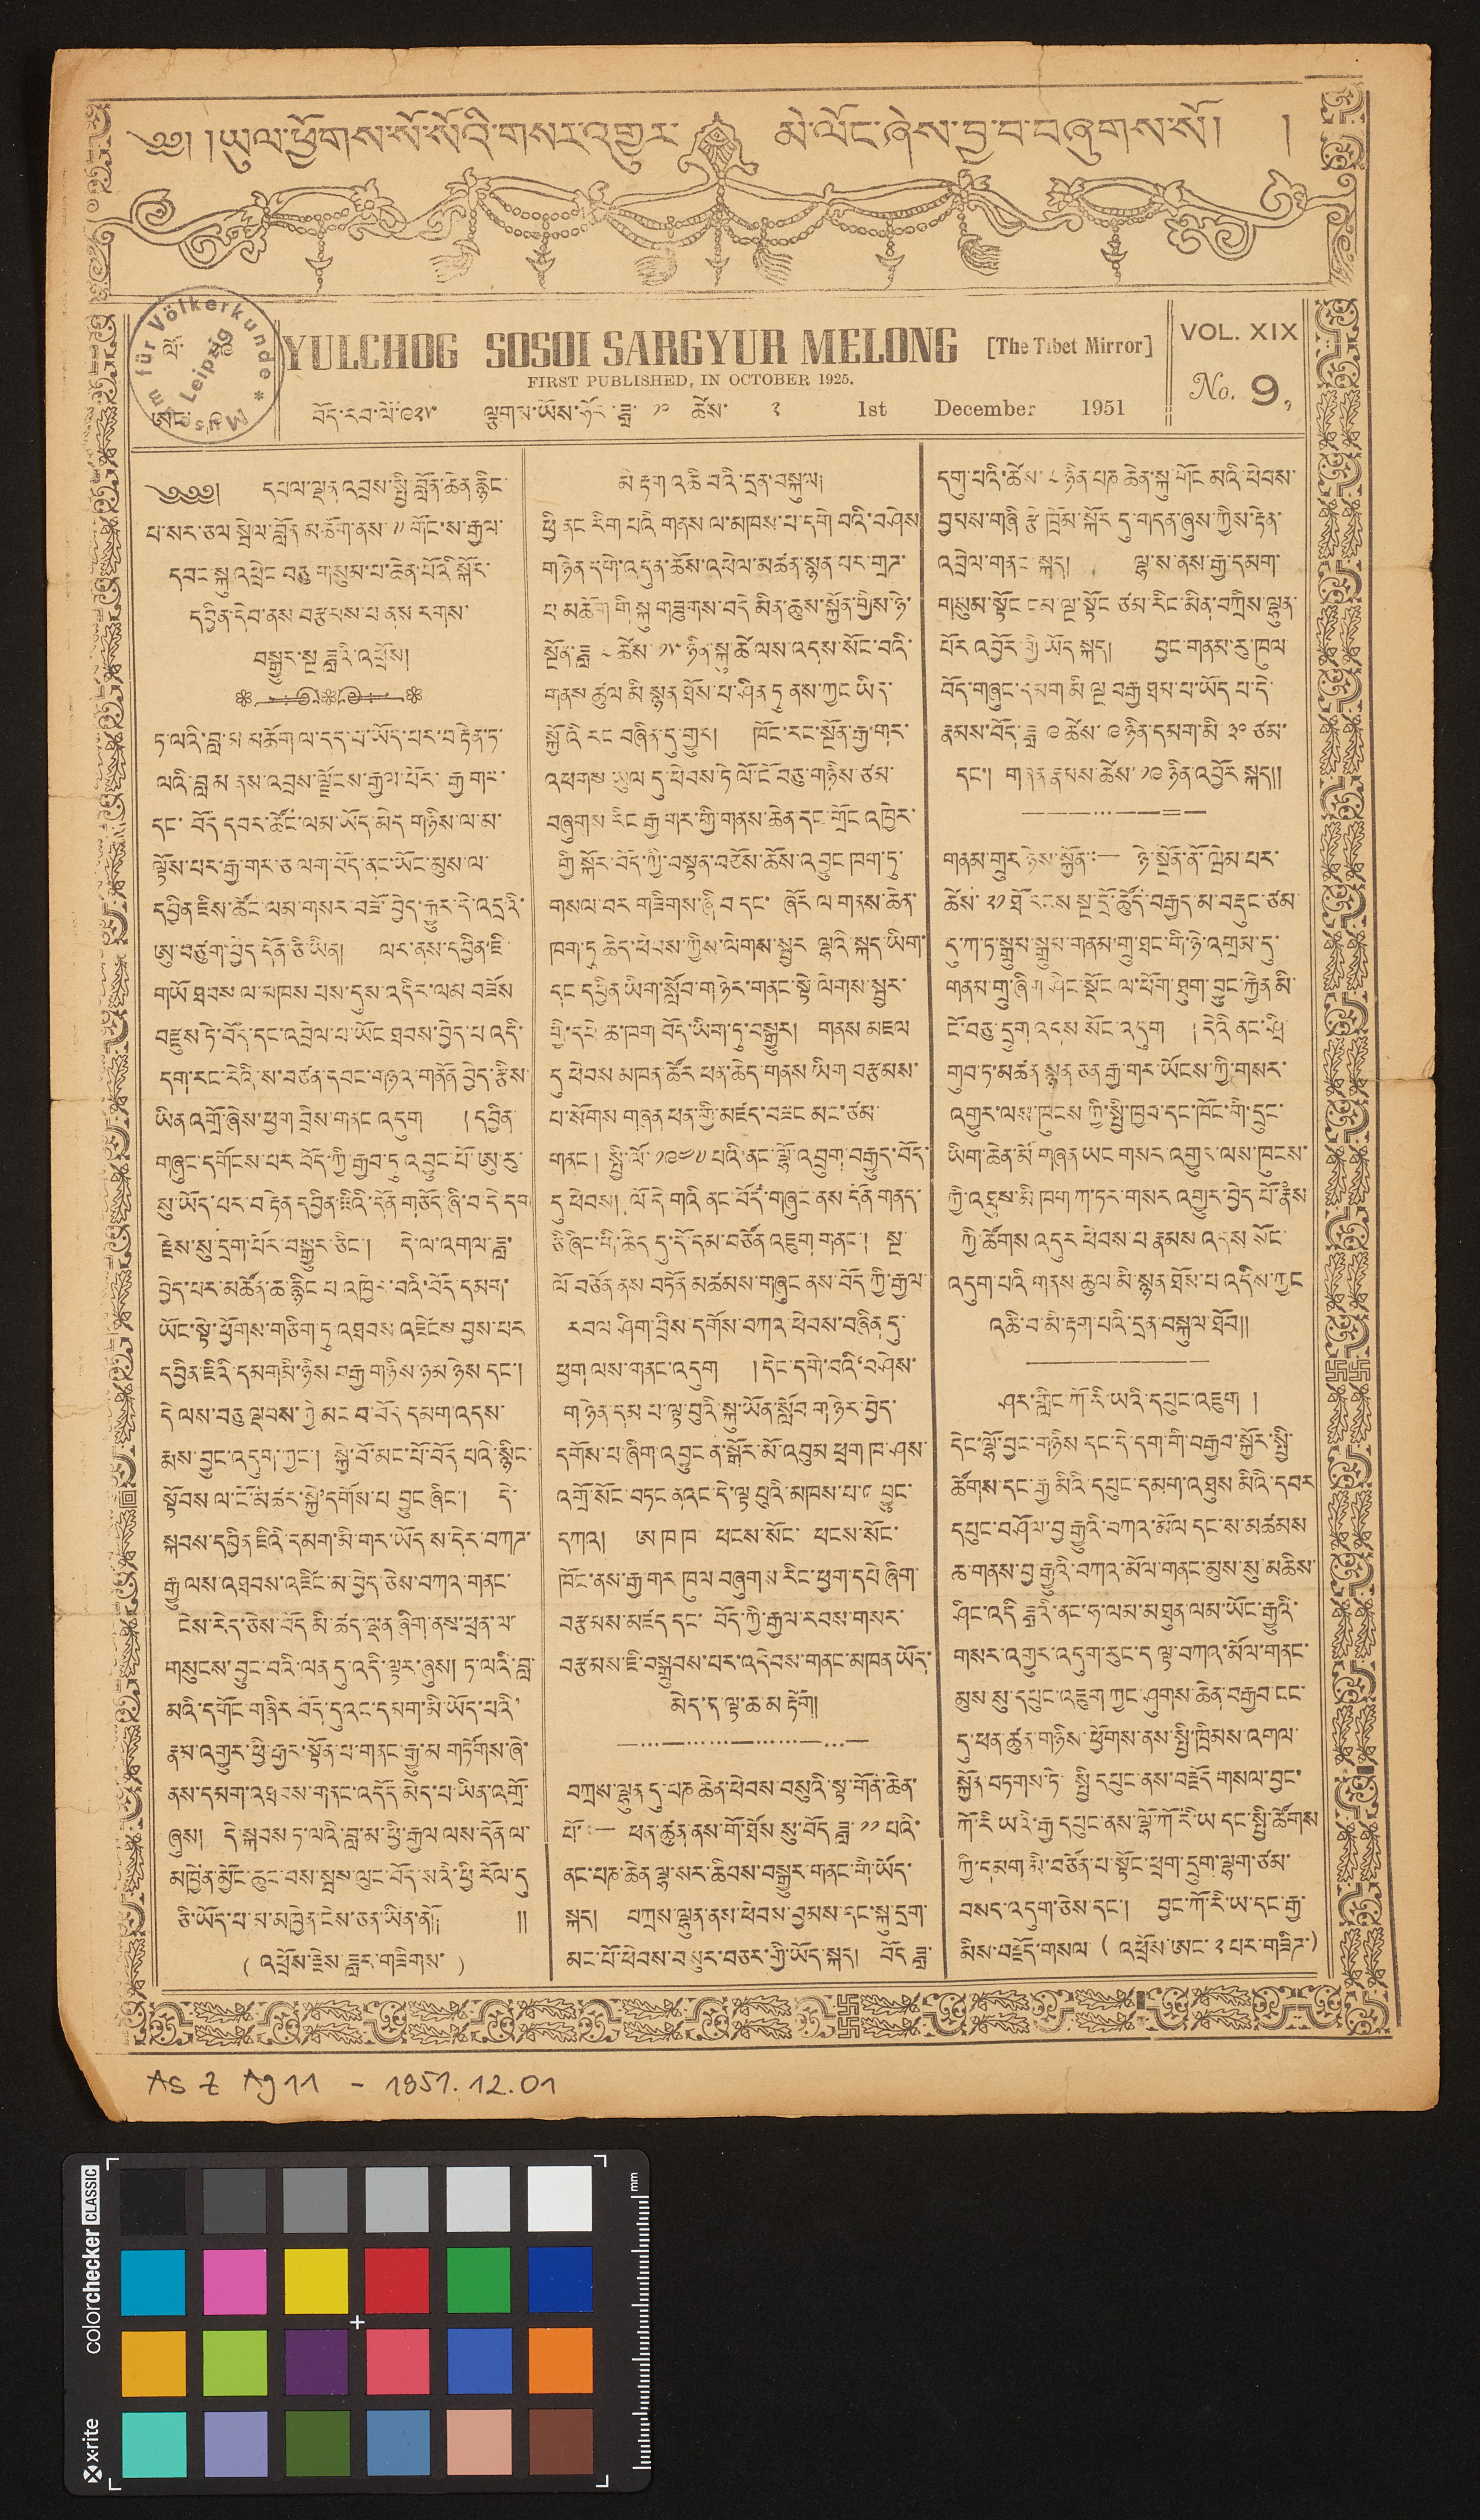༄༅། །ཡུལ་ཕྱོགས་སོ་སོའི་གསར་འགྱུར་ མེ་ལོང་ཞེས་བྱ་བ་བཞུགས་སོ། །
ལོ་ ༩
ཨང་ ༩
YULCHOG SOSOI SARGYUR MELONG [The Tibet Mirror]
FIRST PUBLISHED, IN OCTOBER 1925.
བོད་རབ་ལོ་༩༢༥ ལྕགས་ཡོས་ཧོར་ཟླ་ ༡༠ ཚེས་ ༢ 1st December 1951.
VOL. XIX
No 9,
༄༅། དཔལ་ལྡན འབྲས་སྤྱི བློན་ཆེན རྙིང་
པ་སར་ཅལ སྦེལ་བློན མཆོག་ནས་༸གོང་ས་རྒྱལ་
དབང་སྐུ་འཕྲེང བཅུ གསུམ་པ་ཆེན་པོའི སྐོར་
དབྱིན་དེབ་ནས བརྩམས་པ ནས རགས་
བསྒྱུར་སྔ ཟླའི་འཕྲོས།།
ཏཱ་ལའི་བླ་མ མཆོག ལ་དད་པ་ཡོད་པར་བརྟེན་ཏ་
ལའི་བླ མ ནས་འབྲས་ལྗོངས་རྒྱལ་པོར་རྒྱ གར་
དང་བོད དབར་ཚོང་ལམ་ཡོད་མེད་གཉིས་ལ་མ་
ལྟོས་པར་རྒྱ་གར་ཅ ལག་བོད་ནང་ཡོང་མུས་ལ་
དབྱིན་ཇིས་ཚོང་ལམ་གསར་བཟོ་བྱེད་རྒྱུར་དེ་འདྲའི་
ཨུ་བཙུག་བྱེད་དོན་ཅི་ཡིན། ལར་ནས་དབྱིན་ཇི་
གཡོ ཐབས ལ་མཁས པས་དུས་འདིར་ལམ བཟོས
བརྫུས་ཏེ་བོད་དང་འབྲེལ་པ་ཡོང ཐབས་བྱེད་པ་འདི་
དག་རང་རེའི་ས་བཙན་དབང་གཉའ་གནོན བྱེད་རྩིས་
ཡིན འགྲོ་ཞེས་ཕྱག བྲིས་གནང འདུག །དབྱིན་
གཞུང་དགོངས་པར བོད་ཀྱི་རྒྱབ་དུ འབྱུང་པོ་ཨུ་རུ་
སུ་ཡོད་པར་བརྟེན དབྱིན་ཇིའི་དོན གཅོད་ཞི་བ་དེ་དག
རྗེས་སུ་དྲག་པོར་བསྒྱུར་ཅིང་། དེ་ལ་འགལ་ཟླ་
བྱེད་པར་མཚོན་ཆ་རྙིང པ འཁྱེར་བའི་བོད་དམག་
ཡོང་སྟེ་ཕྱོགས་གཅིག་ཏུ་འཐབས འཛིངས བྱས་པར
དབྱིན་ཇིའི་དམག མི་ཉིས བརྒྱ གཉིས་ཉམ ཉེས་དང་།
དེ ལས་བཅུ ལྡབས་ཀྱི མང བ་བོད དམག་འདས་
རྨས་བྱུང་འདུག་ཀྱང་། སྐྱེ་བོ་མང་པོ་བོད པའི་སྙིང་
སྟོབས ལ་ངོ་མཚར་སྐྱེ་དགོས་པ བྱུང ཞིང་། དེ་
སྐབས་དབྱིན ཇིའི་དམག་མི་གར་ཡོདས་དེར་བཀཊ་
རྒྱུ ལས་འཐབས་འཛིང་མ་བྱེད་ཅེས་བཀའ་གནང་
ངེས་རེད་ཅེས་བོད མི་ཚད་ལྡན་ཞིག་ནས་ཕྲན་ལ་
གསུངས་བྱུང་བའི་ལན དུ་འདི་ལྟར་ཞུས། ཏཱ་ལའི་བླ་
མའི་དགོང་གཞིར བོད་དུའང་དམག་མི་ཡོད་པའི་
རྣམ་འགྱུར་ཕྱི་རྒྱུར་སྟོན་པ་གནང་རྒྱུ་མ གཏོགས་ཞེ་
ནས་དམག་འཐབས་གནང་འདོད་མེད་པ་ཡིན་འགྲོ་
ཞུས། དེ་སྐབས ཏ་ལའི་བླ་མ་ཕྱི་རྒྱལ ལས་དོན་ལ་
མཁྱེན་མྱོང་ཆུང་བས་སྦས་ལུང་བོད་སའི་ཕྱི རོལ་དུ་
ཅི་ཡོད་པ་མ་མཁྱེན་ངེས་ཅན་ཡིན་ནོ།། །
( འཕྲོས་རྗེས་ཟླར་གཟིགས་ )
མེ རྟག འཆི བའི་དྲན་བསྐུལ།
ཕྱི ནང རིག་པའི གནས ལ་མཁས་པ་དགེ བའི་བཤེས
གཉེན དགེ་འདུན་ཆོས་འཕེལ་མཚན་སྙན་པར་གྲཌ་
པ མཆོག གི སྐུ གཟུགས་བདེ མིན་ཆུས་སྐྱོན་གྱིས་ཉེ་
སྔོན་ཟླ ༨ ཚེས་ ༡༥ ཉིན་སྐུ་ཚེ ལས་འདས་སོང་བའི་
གནས ཚུལ མི སྙན ཐོས་པ་ཤིན ཏུ ནས་ཀྱང ཡིད་
སྐྱོའི རང བཞིན་དུ་གྱུར། ཁོང་རང་སྔོན་རྒྱ་གར་
འཕགས ཡུལ དུ་ཕེབས་ཏེ ལོ་ངོ་བཅུ་གཉིས་ཙམ་
བཞུགས རིང རྒྱ གར་གྱི་གནས་ཆེན་དང་གྲོང འཁྱེར་
གྱི སྐོར་བོད་ཀྱི་བསྟན་བཅོས་ཆོས་འབྱུང ཁག་ཏུ་
གསལ་བར གཟིགས་ཞི བ དང་ཞོར་ལ གནས་ཆེན་
ཁག་ཏུ ཆེད་ཕེབས་ཀྱིས་ལེགས་སྦྱར ལྷའི་སྐད་ཡིག་
དང་དབྱིན ཡིག་སློབ་གཉེར་གནང་སྟེ་ལེགས་སྦྱར་
གྱི་དཔེ་ཆ་ཁག བོད་ཡིག་ཏུ་བསྒྱུར། གནས མཇལ
དུ ཕེབས མཁན་ཚོར ཕན་ཆེད་གནས ཡིག བརྩམས་
པ་སོགས གཞན ཕན་གྱི་མཛད་བཟང མང་ཙམ་
གནང ། སྤྱི་ལོ་ ༡༩༤༧ པའི་ནང་ལྷོ་འབྲུག་བརྒྱུད་བོད་
དུ་ཕེབས། ལོ དེ གའི ནང་བོད་གཞུང་ནས དོན གནད་
ཅི ཞིང་གི་ཆེད དུ་དོ་དམ་བཙོན འཇུག གནང་། སྔ་
ལོ བཙོན ནས བཏོན མཚམས་གཞུང ནས་བོད་ཀྱི་རྒྱལ་
རབ ལ ཤིག་བྲིས དགོས་བཀའ་ཕེབས་བཞིན དུ་
ཕྱག ལས་གནང་འདུག །དེང་དགེ་བའི་བཤེས་
གཉེན་དམ པ་ལྟ་བུའི་སྐུ་ཡོན་སློབ གཉེར་བྱེད་
དགོས་པ་ཞིག་འབྱུང ན་སྒོར་མོ་འབུམ ཕྲག ཁ་ཤས་
འགྲོ་སོང་བཏང ནའང་དེ་ལྟ བུའི་མཁས་པ་འབྱུང་
དཀའ། ཨ ཁ ཁ་ ཕངས་སོང་ ཕངས་སོང་
ཁོང་ནས་རྒྱ་གར ཁུལ་བཞུགས་རིང་ཕྱག་དཔེ ཞིག་
བརྩམས་མཛད དང་ བོད་ཀྱི་རྒྱལ་རབས་གསར་
བརྩམས་ཇི་བསྒྲུབས་པར་འདེབས་གནང་མཁན ཡོད་
མེད་ན་ལྟ་ཆ་མ རྟོག།།
བཀྲས་ལྷུན དུ་པཎ ཆེན་ཕེབས་བསུའི་སྟ་གོན་ཆེན་
པོ་ :— ཕན་ཚུན་ནས་གོ་ཐོས སུ་བོད་ཟླ་ ༡༡ པའི་
ནང་པཎ་ཆེན ལྷ་སར་ཆིབས་བསྒྱུར་གནང་གི་ཡོད་
སྐད། བཀྲས་ལྷུན་ནས་ཕེབས་བྱམས་དང་སྐུ་དྲག་
མང་པོ་ཕེབས་བསུར་བཅར་གྱི་ཡོད་སྐད། བོད ཟླ་
དགུ་པའི་ཚེས་ ༨ ཉིན་པཎ ཆེན་སྐུ་གོང མའི་ཕེབས་
བྱམས་གཞི རྩེ ཁྲོམ་སྐོར དུ་གདན་ཞུས་ཀྱིས་རྟེན་
འབྲེལ་གནང་སྐད། ལྷ་ས་ནས་རྒྱ་དམག་
གསུམ་སྟོང ངམ་ལྔ་སྟོང ཙམ་རིང་མིན་བཀྲིས་ལྷུན་
པོར འབྱོར་གྱི ཡོད སྐད། བྱང་གནམ་རུ་ཁུལ
བོད་གཞུང་དམག མི ལྔ བརྒྱ ཐམ་པ་ཡོད པ་དེ་
རྣམས་བོད་ཟླ ༩ ཚེས་ ༩ ཉིན་དམག་མི ༣༠ ཙམ་
དང་། གཞན རྣམས་ཚེས་ ༡༩ ཉིན་འབྱོར སྐད།།
གནམ་གྲུར ཉེས་སྐྱོན་— ཉེ་སྔོན་ནོ་ཝེམ་པར་
ཚེས་ ༢༡ ཐོ རངས སྔ་དྲོ་ཚོུད་བརྒྱད་མ་བརྡུང་ཙམ་
དུ་ཀ་ཏ་སྒྲུམ་སྒྲུམ་གནམ་གྲུ་ཐང་གི་ཉེ་འགྲམ་དུ་
གནམ་གྲུ་ཞིག ཤིང་སྡོང ལ་ཕོག་ཐུག་བྱུང་རྐྱེན མི་
ངོ་བཅུ་དྲུག འདས སོང་འདུག །དེའི ནང་ཤྲི་
གུབ་ཏུ་མཚན་སྙན ཅན་རྒྱ་གར་ཡོངས་ཀྱི་གསར་
འགྱུར་ལས་ཁུངས ཀྱི་སྤྱི་ཁྱབ་དང་ཁོང་གི་དྲུང་
ཡིག་ཆེན་མོ གཞན ཡང གསར་འགྱུར་ལས་ཁུངས་
ཀྱི་འཐུས་མི ཁག ཀ་ཏར་གསར འགྱུར་བྱེད་པོ་རྣཾས
ཀྱི་ཚོགས འདུར ཕེབས་པ་རྣམས འདས སོང་
འདུག་པའི གནས་ཆུལ་མི་སྙན་ཐོས་པ འདིས་ཀྱང
འཆི་བ་མི་རྟག་པའི་དྲན་བསྐུལ་ཐོབ།།
ཤར་གླིང་ཀོ་རི་ཡའི་དཔུང་འཇུག །
དེང་ལྷོ་བྱང་གཉིས དང་དེ་དག་གི་བརྒྱབ་སྐྱོར་སྤྱི་
ཚོགས་དང་རྒྱ་མིའི་དཔུང་དམག་འཐུས མིའི་དབར
དཔུང་བཤོལ་བྱ་རྒྱུའི་བཀའ་མོལ དང་ས་མཚམས
ཆ་གནས་བྱ་རྒྱུའི་བཀའ་མོལ་གནང་མུས་སུ་མཆིས་
ཤིང་འདི ཟླའི་ནང་ཧ་ལམ་མཐུན་ལམ་ཡོང་རྒྱུའི་
གསར་འགྱུར་འདུག་རུང་ད ལྟ་བཀའ་མོལ་གནང་
མུས་སུ་དཔུང་འཇུག ཀྱང་ཤུགས་ཆེན་བརྒྱབ་ངང་
ད་ཕན་ཚུན་གཉིས་ཕྱོགས་ནས་སྤྱི་ཁྲིམས་འགལ་
སྐྱོན་བཏགས་ཏེ་སྤྱི དཔུང་ནས་བརྗོད གསལ་བྱང་
ཀོ་རི་ཡའི་རྒྱ་དཔུང་ནས་ལྷོ་ཀོརི་ཡ་དང་སྤྱི་ཚོགས
ཀྱི་དམག་མི་བཙོན་པ་སྟོང་ཕྲག་དྲུག་ལྷག་ཙམ་
བསད་འདུག་ཅེས་དང་། བྱང་ཀོ་རི་ཡ་དང་རྒྱ་
མིས་བརྗོད་གསལ་ ( འཕྲོས་ཨང་ ༢ པར་གཟིཌ་)
མིས་བརྗོད་གསལ་ ( འཕྲོས་ཨང་ ༢ པར་གཟིཌ་)
